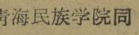靑海民族学院同
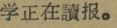学正在讀报。
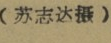（苏志达摄）
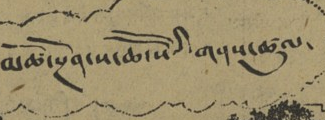མཚོ་སྔོན་ས་ཆ་སོོའི་གནས་ཚུལ་
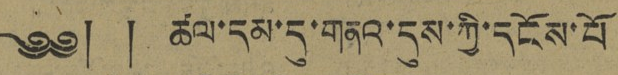༄༅། ། ཚལ་དམ་དུ་གནའ་དུས་ཀྱི་དངོས་པོ
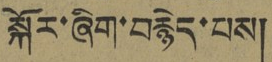སྐོར་ཞིག་བརྙད་པས།
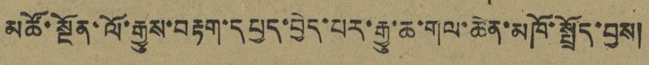མཚོ་སྔོན་ལོ་རྒྱུས་བརྟག་དཔྱད་བྱེད་པར་རྒྱུ་ཆ་གལ་ཆེན་མཁོ་སྤྲོད་བྱས།
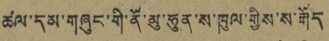ཚལ་དམ་གཞུང་གི་ནོ་མུ་ཧུན་ས་ཁུལ་གྱིས་ས་རྒོད
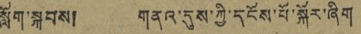སློག་སྐབས། གནའ་དུས་ཀྱི་དངོས་པོ་སྐོར་ཞིག
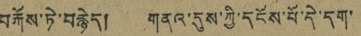བརྐོས་ཏེ་བརྙེད། གནའ་དུས་ཀྱི་དངོས་པོ་དེ་དག་
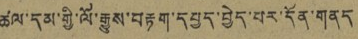ཚལ་དམ་གྱི་ལོ་རྒྱུས་བརྟག་དཔྱད་བྱེད་པར་དོན་གནད
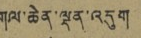གལ་ཆེན་ལྡན་འདུག
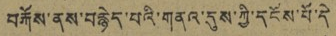བརྐོས་ནས་བརྙེད་པའི་གནའ་དུས་ཀྱི་དངོས་པོ་དེ
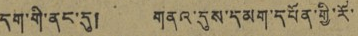དག་གིག་ནང་དུ། གནའ་དུས་དམག་དཔོན་གྱི་རོ་
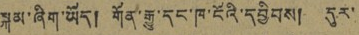སྐམ་ཞིག་ཡོད། གོན་རྒྱུ་དང་ཁ་ངོའི་དབྱིབས། དུར་
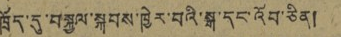ཁྲོད་དུ་བསྐྱལ་སྐབས་ཁྱེར་བའི་སྒ་དང་འོབ་ཅིན།
